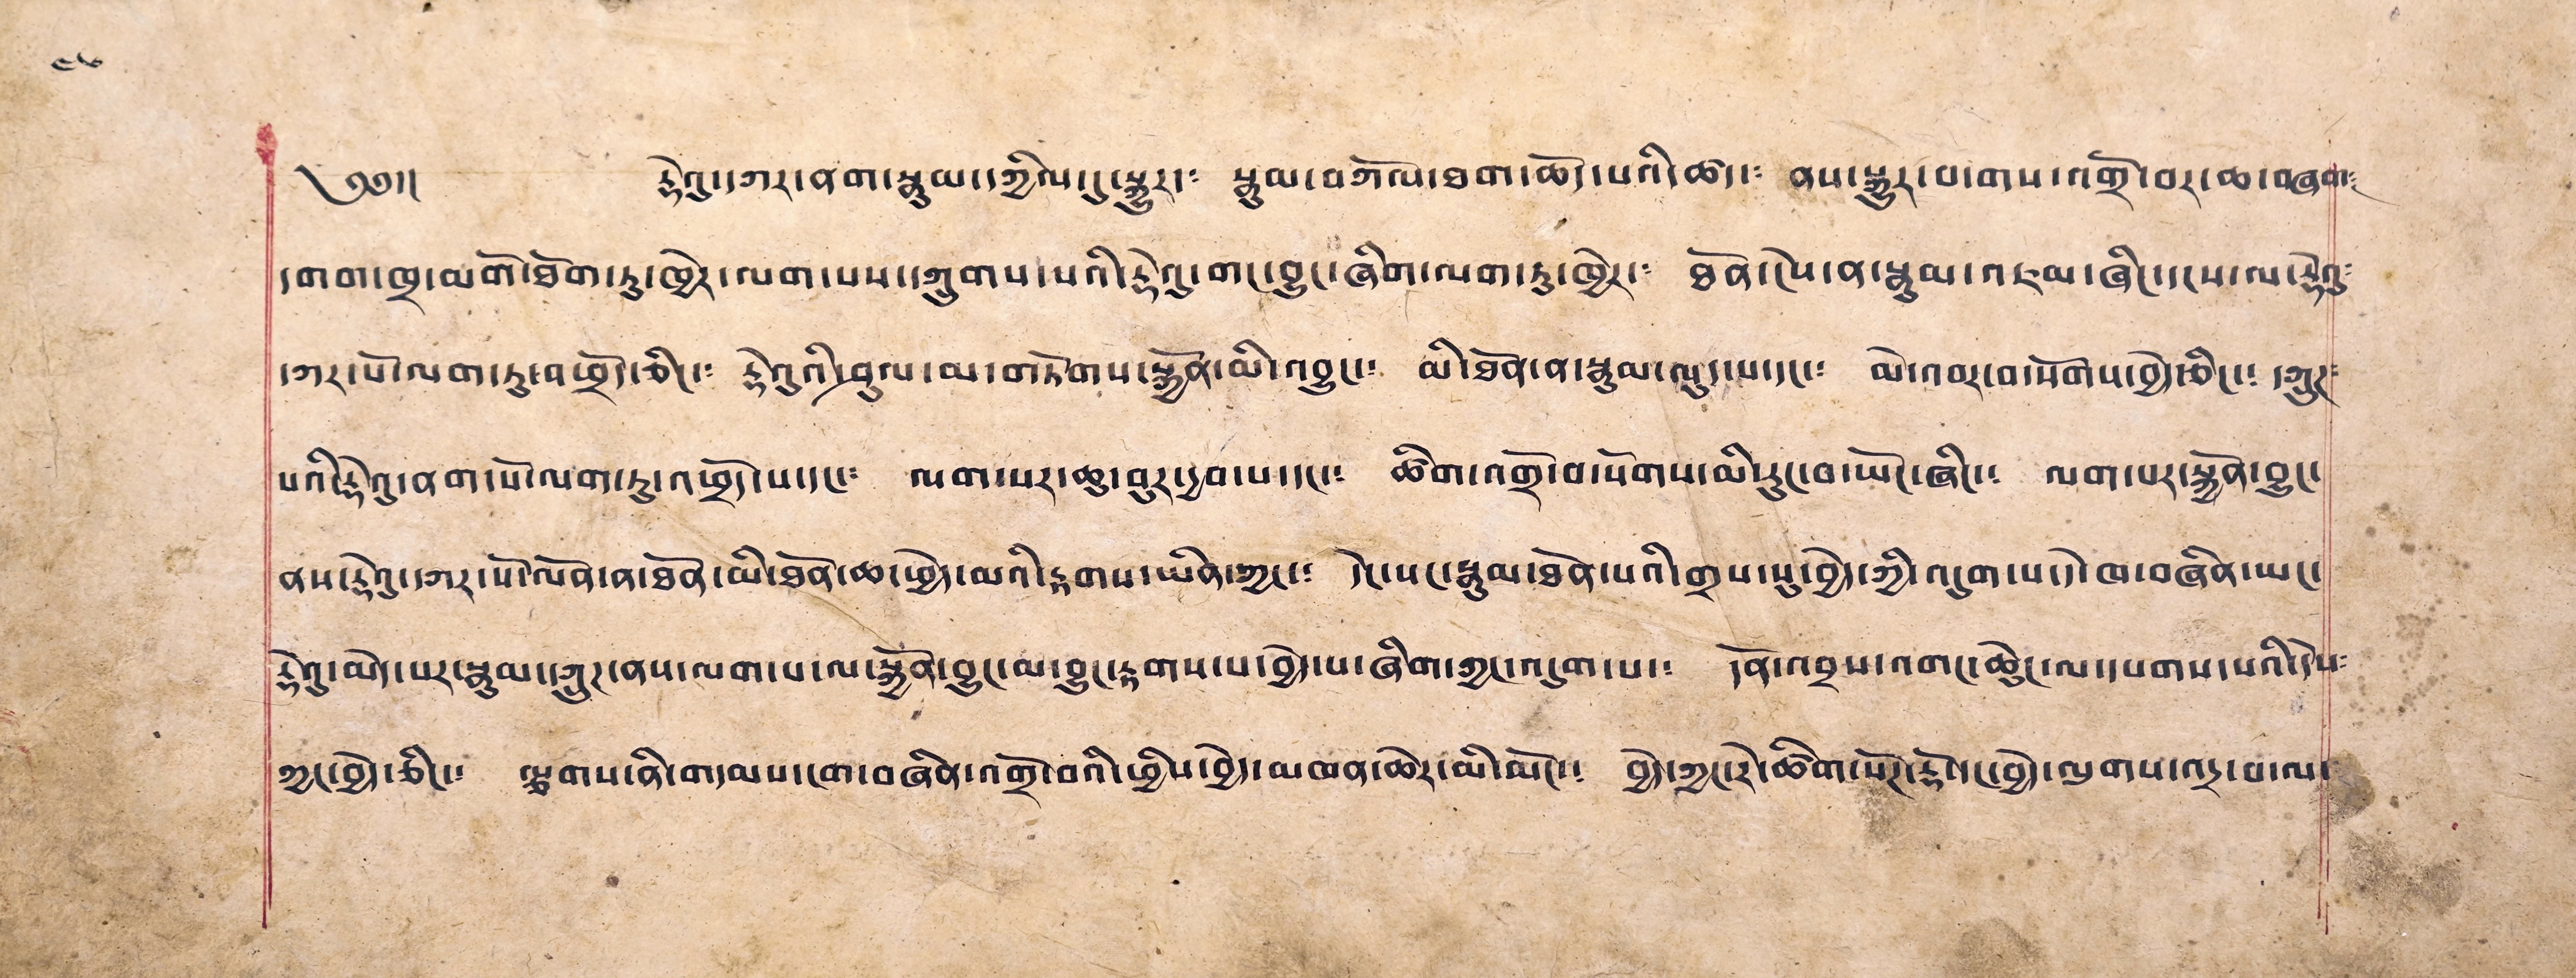༄༅།། རྡེའུ་དཀར་ནག་རྣམ་དཀྱིལ་དུ་སྐུར་༴ སྣུམ་བཀོལ་ཐག་ཆོད་པའི་ཚད་༴ ནས་སྐྱུར་བ་གས་འགྲོ་བར་ཆ་བཞག་༴
དགག་ཁྲ་མགོ་ཐོག་ཏུ་ཁྱེར་ལག་པས་དཀྲུགས་པའི་རྡེའུ་གང་བྱུང་ཞིག་ལག་ཏུ་ཁྱེར་༴ ཐོན་ངེས་ན་སྣུམ་འཇམ་ཞིང་དངས་ལ་རྡེའུ༴
དཀར་པོ་ལག་ཏུ་འཕྲོད་ཅིང་༴ རྡེའུའི་ཤུལ་མ་གཏོགས་སྐྱོན་མི་འབྱུང་༴ མི་ཐོན་ན་སྣམ་ལུད་པ་དང་༴ མེ་འབར་བ་སོགས་བྱེ་ཅིང་༴ དཀྲུཊ༴
པའི་རྡེའུ་ནག་པོ་ལག་ཏུ་འཕྲོད་པ་དང་༴ ལག་པར་ཆུ་བུར་དྱབ་པ་དང་༴ ཚིག་འགྲོ་བ་སོགས་མི་རུང་བ་ཡོང་ཞིང་༴ ལག་པར་སྐྱོན་བྱུང་
ནས་རྡེའུ་དཀར་པོ་ལོན་ན་ཐོན་མི་ཐོན་ཆ་ཕྱེད་མའི་རྟགས་ཡིན་ཀྱང་༴ དེང་སང་སྣུམ་ཐོན་པའི་གྲས་སུ་བྱེད་ཀྱི་འདུག་པ་དེ་ཁ་བཞིན་ཡང་
རྡེའུ་མེད་པར་སྣུམ་དཀྲུཊ་ནས་ལག་པ་ལ་སྐྱོན་བྱུང་མ་བྱུང་རྟགས་པ་བྱེད་པ་ཞིག་ཀྱང་འདུག་པ་༴ དོན་འབྲས་འགང་ཆེུང་ལ་དཔགས་པའི་དེས༴
ཀྱང་བྱེད་ཅིང་༴ ལྕགས་ནི་གདམས་ངག་བཞིན་འགྲོ་བའི་ཕྱིས་བྱེད་མཁན་ཆེར་མི་མོང་༴ བྱེད་ཀྱང་རེ་ཚིག་སོཊ་རྡོ་དང་བྱེད་ལུགས་འདྲ་བ་ལ་
